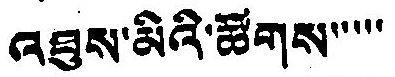འཐུས་མིའི་ཚོགས་་་་་
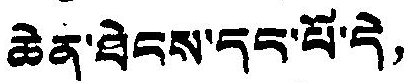ཆེན་ཐེངས་དང་པོ་དེ，
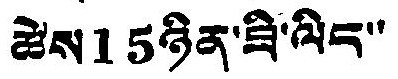ཚེས15ཉིན་ཟི་ལིང་་
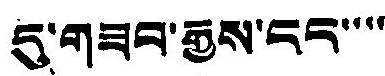དུ་གཟབ་རྒྱས་ངང་་་་
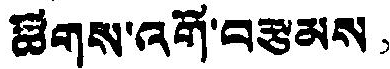ཚོགས་འགོ་བརྩམས，
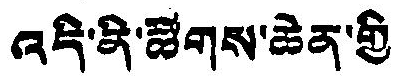འདི་ནི་ཚིགས་ཆེན་གྱི
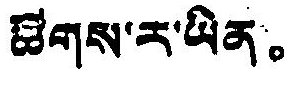ཚོགས་ར་ཡིན。
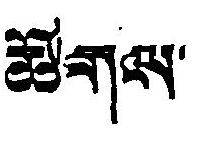ཚེ་གས་
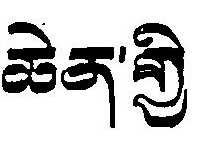ཆེན་གྱི
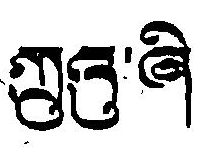ཀྲུའུ་ཞི
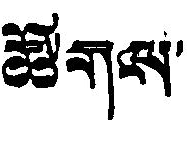ཚུགས་
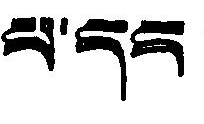པ་དང
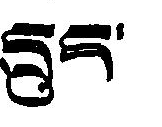དྲུང་
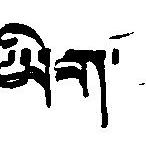ཡིག་
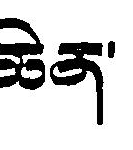ཆེན་
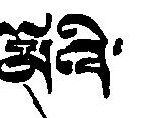མོའི་
